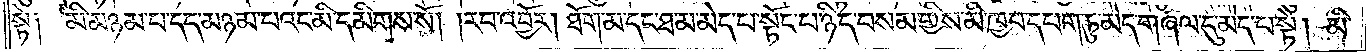སྟེ། མི་མཉམ་པ་དང་མཉམ་པའང་མི་དམིགས་སོ། །རབ་འབྱོར། ཐོག་མ་དང་ཐ་མ་མེད་པ་སྟོང་པ་ཉིད་བསམ་གྱིས་མི་ཁྱབ་དཔག་ཏུ་མེད་གཞལ་དུ་མེད་པ་སྟེ། མི་
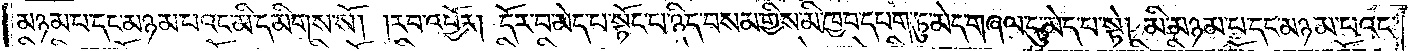མཉམ་པ་དང་མཉམ་པའང་མི་དམིགས་སོ། །རབ་འབྱོར། དོར་བ་མེད་པ་སྟོང་པ་ཉིད་བསམ་གྱིས་མི་ཁྱབ་དཔག་ཏུ་མེད་གཞལ་དུ་མེད་པ་སྟེ། མི་མཉམ་པ་དང་མཉམ་པའང་
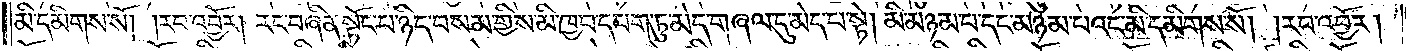མི་དམིགས་སོ། །རབ་འབྱོར། རང་བཞིན་སྟོང་པ་ཉིད་བསམ་གྱིས་མི་ཁྱབ་དཔག་ཏུ་མེད་གཞལ་དུ་མེད་པ་སྟེ། མི་མཉམ་པ་དང་མཉམ་པའང་མི་དམིགས་སོ། །རབ་འབྱོར།
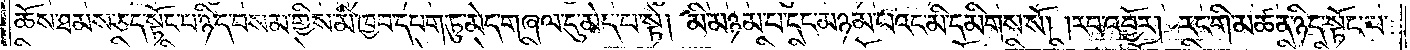ཆོས་ཐམས་ཅད་སྟོང་པ་ཉིད་བསམ་གྱིས་མི་ཁྱབ་དཔག་ཏུ་མེད་གཞལ་དུ་མེད་པ་སྟེ། མི་མཉམ་པ་དང་མཉམ་པའང་མི་དམིགས་སོ། །རབ་འབྱོར། རང་གི་མཚན་ཉིད་སྟོང་པ་
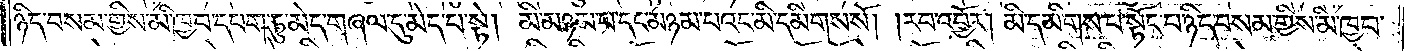ཉིད་བསམ་གྱིས་མི་ཁྱབ་དཔག་ཏུ་མེད་གཞལ་དུ་མེད་པ་སྟེ། མི་མཉམ་པ་དང་མཉམ་པའང་མི་དམིགས་སོ། །རབ་འབྱོར། མི་དམིགས་པ་སྟོང་པ་ཉིད་བསམ་གྱིས་མི་ཁྱབ་
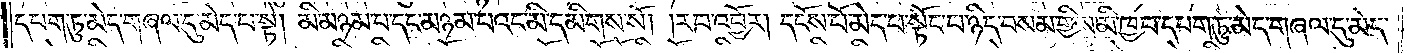དཔག་ཏུ་མེད་གཞལ་དུ་མེད་པ་སྟེ། མི་མཉམ་པ་དང་མཉམ་པའང་མི་དམིགས་སོ། །རབ་འབྱོར། དངོས་པོ་མེད་པ་སྟོང་པ་ཉིད་བསམ་གྱིས་མི་ཁྱབ་དཔག་ཏུ་མེད་གཞལ་དུ་མེད་
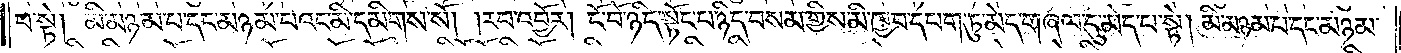པ་སྟེ། མི་མཉམ་པ་དང་མཉམ་པའང་མི་དམིགས་སོ། །རབ་འབྱོར། ངོ་བོ་ཉིད་སྟོང་པ་ཉིད་བསམ་གྱིས་མི་ཁྱབ་དཔག་ཏུ་མེད་གཞལ་དུ་མེད་པ་སྟེ། མི་མཉམ་པ་དང་མཉམ་
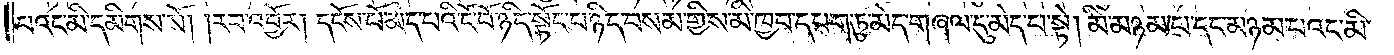པའང་མ་དམིགས་སོ། །རབ་འབྱོར། དངོས་པོ་མེད་པའི་ངོ་བོ་ཉིད་སྟོང་པ་ཉིད་བསམ་གྱིས་མི་ཁྱབ་དཔག་ཏུ་མེད་གཞལ་དུ་མེད་པ་སྟེ། མི་མཉམ་པ་དང་མཉམ་པའང་མི་
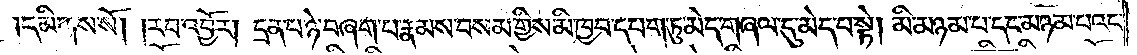དམིགས་སོ། །རབ་འབྱོར། དྲན་པ་ཉེ་བར་བཞག་པ་རྣམས་བསམ་གྱིས་མི་ཁྱབ་དཔག་ཏུ་མེད་གཞལ་དུ་མེད་པ་སྟེ། མི་མཉམ་པ་དང་མཉམ་པའང་
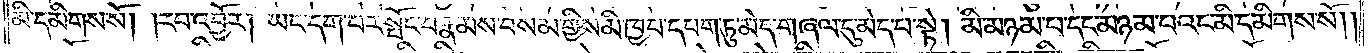མི་དམིགས་སོ། །རབ་འབྱོར། ཡང་དག་པར་སྤོང་བ་རྣམས་བསམ་གྱིས་མི་ཁྱབ་དཔག་ཏུ་མེད་གཞལ་དུ་མེད་པ་སྟེ། མི་མཉམ་པ་དང་མཉམ་པའང་མི་དམིགས་སོ། །
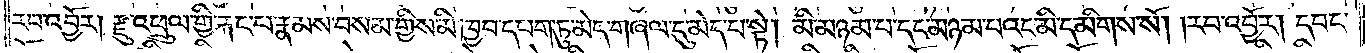རབ་འབྱོར། རྫུ་འཕྲུལ་གྱི་རྐང་པ་རྣམས་བསམ་གྱིས་མི་ཁྱབ་དཔག་ཏུ་མེད་གཞལ་དུ་མེད་པ་སྟེ། མི་མཉམ་པ་དང་མཉམ་པའང་མི་དམིགས་སོ། །རབ་འབྱོར། དབང་
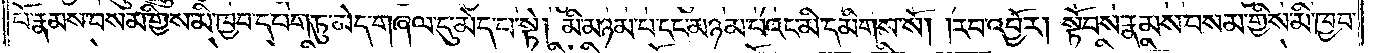པོ་རྣམས་བསམ་གྱིས་མི་ཁྱབ་དཔག་ཏུ་མེད་གཞལ་དུ་མེད་པ་སྟེ། མི་མཉམ་པ་དང་མཉམ་པའང་མི་དམིགས་སོ། །རབ་འབྱོར། སྟོབས་རྣམས་བསམ་གྱིས་མི་ཁྱབ་
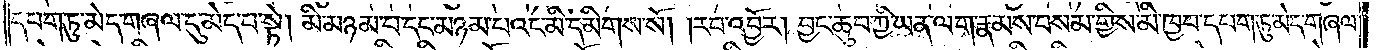དཔག་ཏུ་མེད་གཞལ་དུ་མེད་པ་སྟེ། མི་མཉམ་པ་དང་མཉམ་པའང་མི་དམིགས་སོ། །རབ་འབྱོར། བྱང་ཆུབ་ཀྱི་ཡན་ལག་རྣམས་བསམ་གྱིས་མི་ཁྱབ་དཔག་ཏུ་མེད་གཞལ་
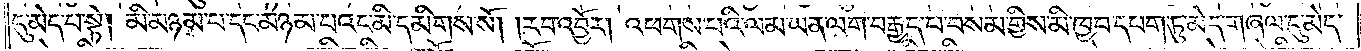དུ་མེད་པ་སྟེ། མི་མཉམ་པ་དང་མཉམ་པའང་མི་དམིགས་སོ། །རབ་འབྱོར། འཕགས་པའི་ལམ་ཡན་ལག་བརྒྱད་པ་བསམ་གྱིས་མི་ཁྱབ་དཔག་ཏུ་མེད་གཞལ་དུ་མེད་
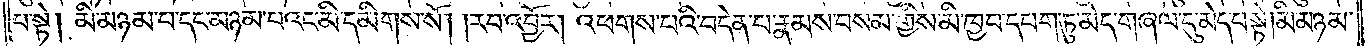པ་སྟེ། མི་མཉམ་པ་དང་མཉམ་པའང་མི་དམིགས་སོ། །རབ་འབྱོར། འཕགས་པའི་བདེན་པ་རྣམས་བསམ་གྱིས་མི་ཁྱབ་དཔག་ཏུ་མེད་གཞལ་དུ་མེད་པ་སྟེ། མི་མཉམ་
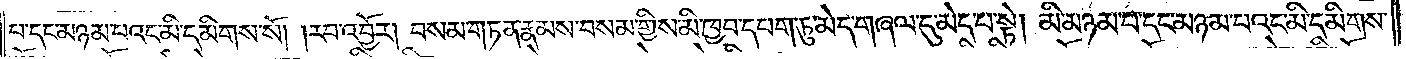པ་དང་མཉམ་པའང་མི་དམིགས་སོ། །རབ་འབྱོར། བསམ་གཏན་རྣམས་བསམ་གྱིས་མི་ཁྱབ་དཔག་ཏུ་མེད་གཞལ་དུ་མེད་པ་སྟེ། མི་མཉམ་པ་དང་མཉམ་པའང་མི་དམིགས་
